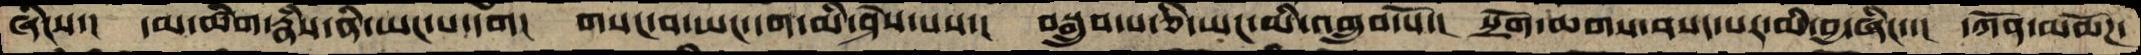ཞིངས་།   དམ་ཚིག་རྣཾས་ནི་ཡང་པ་དག།  གསང་བ་ཡང་དག་མི་ཤེས་པས་།  བསྒྲུབ་པ་ཅི་ཡང་མི་འགྲུབ་པོ་།  སྲོག་ཆགས་བསད་པར་མི་བྱ་ཞིང་་།  དཀོན་མཆོཌ་
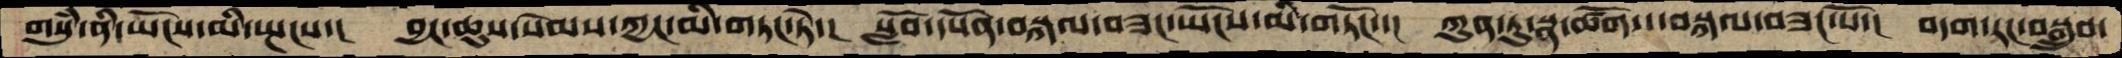གསུཾ་ནི་ཡོངས་མི་སྤངས་།  བྱང་ཆུབ་སེམས་ཀྱང་མི་གཏང་ཏེ་།  སློབ་དཔོན་བསྐལ་བཟང་ཡོངས་མི་གཏོང་་།  ཀུན་ཏུ་སྣ་ཚོགས་བསྐལ་བཟང་པོ་།  བདག་རང་བསྒྲུབ་
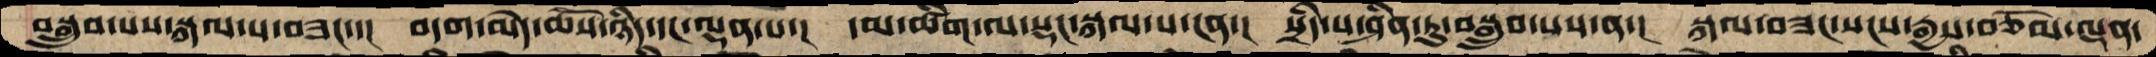བསྒྲུབ་པས་སྐལ་པ་བཟང་་།  བདག་མེད་ཆོས་ཉིད་དང་ལྡན་པ་།  དམ་ཚིག་ལ་སྡང་སྐལ་པ་ངན་།  སྲིད་པ་ཤིན་ཏུ་བསྒྲུབ་པས་ན་།  སྐལ་བཟང་སངས་རྒྱས་བཅོམ་ལྡན་
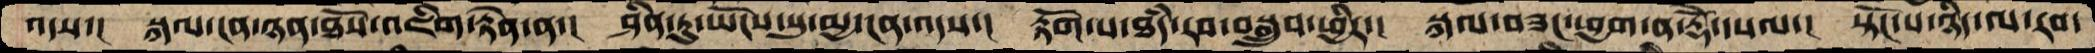འདས་།   སྐལ་ངན་ཉན་ཐོས་འཇིག་རྟེན་ན་།  ཤིན་ཏུ་ཡོངས་སུ་མྱ་ངན་འདས་།  རྟོག་པ་ཐཾད་རབ་བསྒྲུབ་ཕྱིར་།  སྐལ་བཟང་ཕྱག་ན་རྡོེ་དཔལ་།  སྟོང་པ་ཉིད་ལ་རབ་
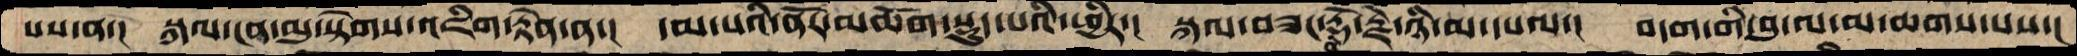པས་ན་།  སྐལ་ངན་མུ་སྟེགས་འཇིག་རྟེན་ན་།  དམ་པའི་ནོར་མཆོག་སྡུད་པའི་ཕྱིར་།  སྐལ་བཟང་རྡོ་རྗེ་ཉི་མ་དཔལ་།   བདག་གི་བུ་ལ་མ་ཆགས་པས་།
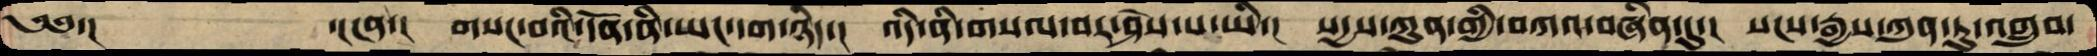༄༅་།           ་།ངན་།  གསང་བའི་དོན་ནི་ཡང་དག་ཉིད་།  འདི་ནི་གསལ་བར་ཤེས་པ་ཡི་།  སདྱས་ཀུན་གྱི་བཀའ་བཞིན་དུ་།  སངས་རྒྱས་ཀུན་ཏུ་འགྲུབ་
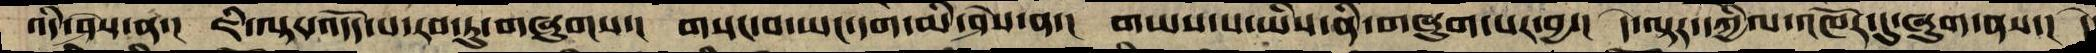འདི་ཤེས་ན་།  ཇི་ལྟར་འདོད་པ་རབ་ཏུ་གཞུགས་།  གསང་བ་ཡང་དག་མི་ཤེས་ན་།  གཡས་པ་ཡིས་ནི་གཞུག་པར་བྱ་།  དེ་ལྟར་དཀྱིལ་འཁོར་དུ་ཞུགས་ནས་།  དེ
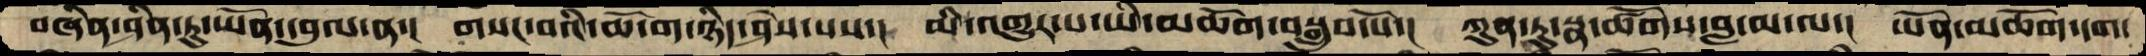བཞིན་ཤིན་ཏུ་ཡོན་དབུལ་ན་།  གསང་བའི་ཆོ་ག་ཉིད་ཤེས་པས་།  མི་འགྱུར་པ་ཡི་མཆོག་བསྒྲུབ་པོ་།  ཀུན་ཏུ་སྣ་ཚོགས་བླ་མ་ལ་།  ཡོན་མཆོག་དག་
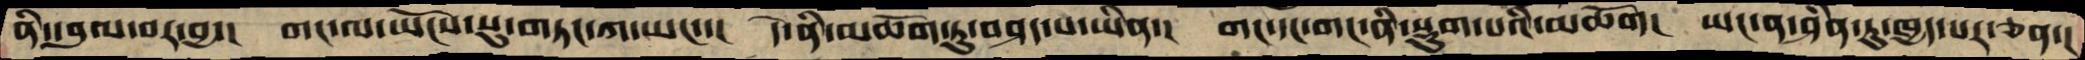ནི་དབུལ་བར་བྱ་།  གང་ལ་ཡོངས་སུ་གཏང་ཀ་ཡང་་།  དེ་ནི་མཆོག་ཏུ་བཤད་པ་ཡིན་།  གང་དང་གང་ནི་སྡུག་པའི་མཆོག།  ཡང་ན་ཤིན་ཏུ་ཁྱད་པར་ཅན་།
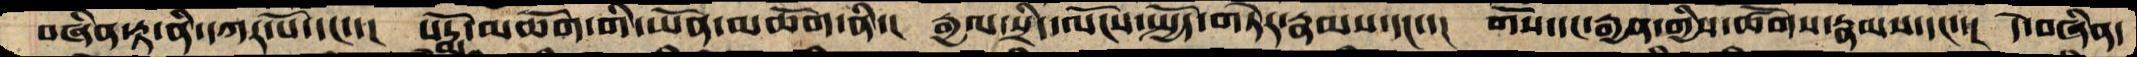བཞིན་རྟ་ནི་དཀར་པོ་དང་་།  པདྨོ་མཆོག་གི་ཡོན་མཆོག་ནི་།  རྒྱལ་སྲིད་ལོངས་སྤྱོད་གཏེར་རྣམས་དང་།  གོས་དང་རྒྱན་གྱིས་ཚོགས་རྣམས་དང་་།  དེ་བཞིན་
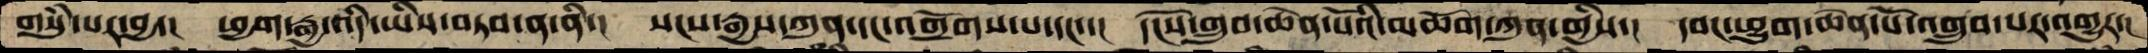གསུཾ་པར་བྱ་།  ཕྱག་རྒྱ་འདི་ཡིས་བཏབ་ན་ནི་།  སངས་རྒྱས་ཀུན་དང་འགྲོགས་པ་དང་་།  དངོས་གྲུབ་ཆེན་པོའི་མཆོག་ཀུན་གྱིས་།  དབང་ཕྱུག་ཆེན་པོ་འགྲུབ་པར་འགྱུར་།
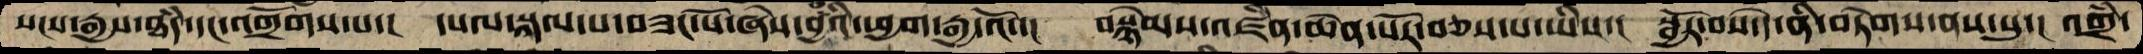སངས་རྒྱས་ཐཾད་དང་འགྲོགས་པ་།  དཔལ་སྐལ་པ་བཟང་པོ་ཞེས་བྱའི་ཕྱག་རྒྱ་འོ་་།  བསྙེམས་འཛིན་ཆེན་པོར་བཅས་པ་ཡིས་།  སྦྱོར་བས་དེ་ནི་བཏེགས་ནས་སུ་།  འགྲཾ་
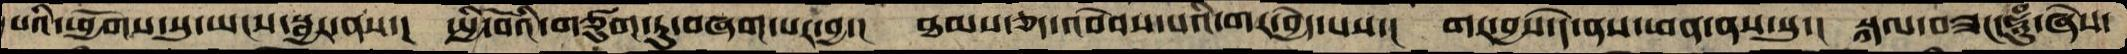པའི་ཕྱོགས་སུ་ཡངས་སྦྱར་ནས་།  སྤྱི་བོའི་གཙུག་ཏུ་བཞག་པར་བྱ་།  ཐམས་ཅད་འབེབས་པའི་གར་བྱེད་པས་།  གར་བྱས་དེ་ནས་ཕན་ནས་སུ་།  སྐལ་བཟང་ཧཱུཾ་ཞེས་
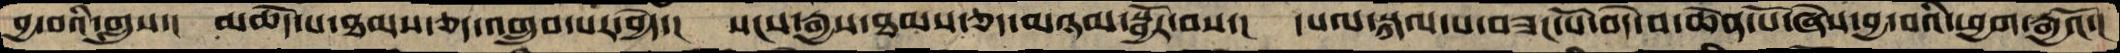བྱ་བའི་གླུས་།  མཆོད་པ་ཐམས་ཅད་འགྲུབ་པར་བྱེད་།  སངས་རྒྱས་ཐམས་ཅད་མཉམ་སྦྱོར་བས་།  དཔལ་སྐལ་པ་བཟང་པོ་བདེ་བ་ཆེན་པོ་ཞེས་བྱ་བའི་ཕྱག་རྒྱའོ་།
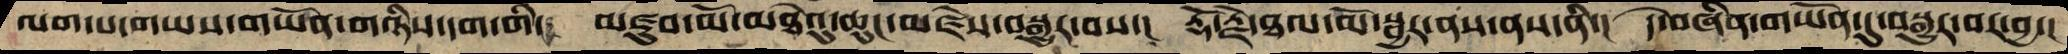ལག་པ་གཡས་གཡོན་གཉིས་དག་གི།  མཛུབ་མོ་མཐེའུ་ཆུང་མཛེས་བསྒྱུར་བས་།  རྡོ་རྗེ་ཐལ་མོ་སྦྱར་ནས་ནས་ནི་།  དེ་བཞིན་གཡོན་དུ་བསྒྱུར་བར་བྱ་།
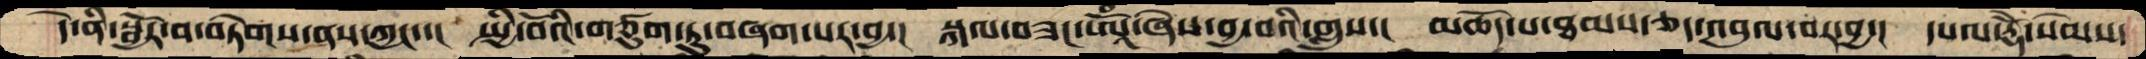དེ་ནི་སྦྱོར་བ་བཏེགས་ནས་ཀྱང་་།  སྤྱི་བོའི་གཙུག་ཏུ་བཞག་པར་བྱ་།  སྐལ་བཟང་ཨཱོཾ་ཞེས་བྱ་བའི་གླུས་།  མཆོད་པ་ཐམས་ཅད་འབུལ་བར་བྱ་།  དཔལ་རྡོེ་སེམས་
